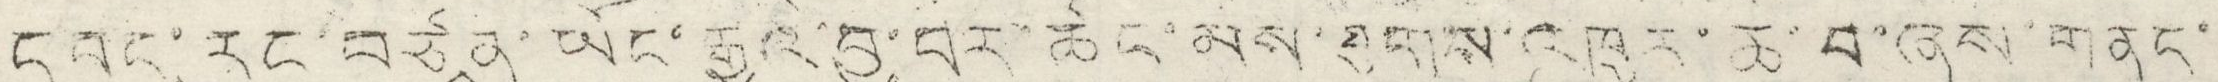དབང་རང་བཙན་ཡོང་རྒྱུའི་བྱ་བར་ཚང་མས་ཐུགས་འཁུར་ཆེ་བ་ཞེས་གནང་
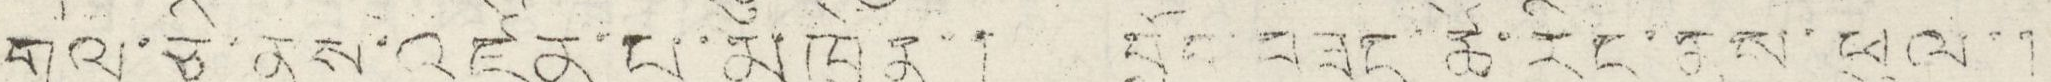གལ་ཅི་ནས་འཛིན་པ་མཁྱེན་། བློབ་བཟང་ཚེ་རིང་ནས་ཕུལ་།
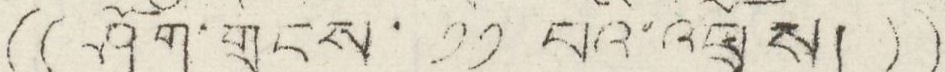(( ཤོག་གྲངས་ ༡༡ པའི་འཕྲོས། ))
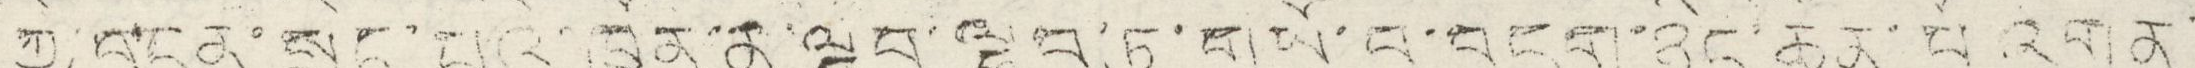ཀྱི་བདན་སྲིད་པའི་ཁྱོན་ན་ལྷབ་ལྷུབ་ཏུ་གསོལ་བདག་ཉིད་ཆེན་པོ་འགན་
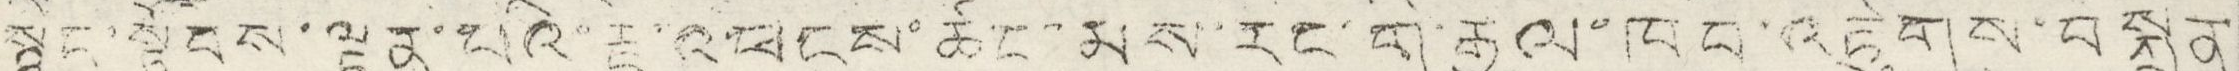སྙིང་སྟོབས་ལྡན་པའི་རྔ་འཕངས་ཚང་མས་རང་གི་རྒྱལ་ཁབ་འཛུགས་བསྐྲུན
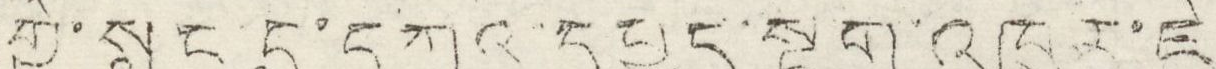གྱི་སླང་དུ་དཀའ་དཔྱད་སྡུག་འཁུར་ཇི་
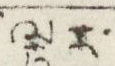ལྟར་
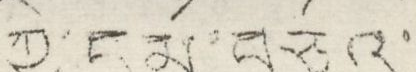ཀྱི་དམ་བཅའ་
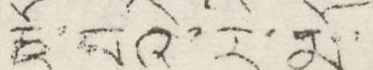རྡོ་བའི་རི་མོ་
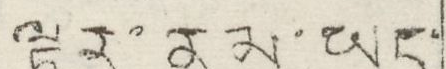ལྟར་ནམ་ཡང་
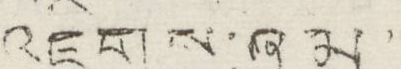འཇིགས་ཞུམ་
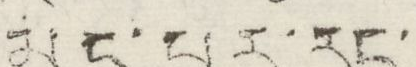མེད་པར་རང་
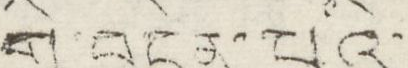གི་བདེན་པའི་
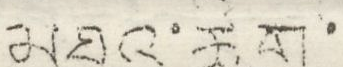མཐའ་ཚོག་
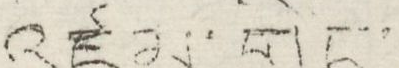འཛམ་གླིང་
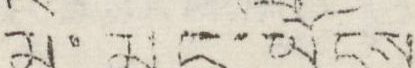མི་མང་ཡོངས
